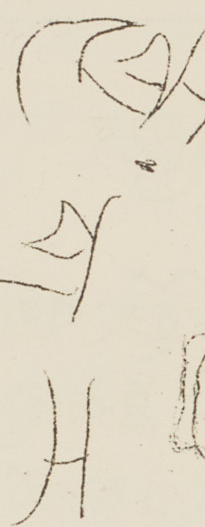རྒྱ་གར
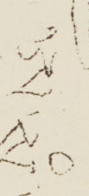ཨ་སཾ་
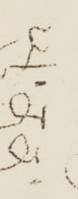ཡུ་ནན་
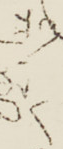ཀི་ཅའོ་
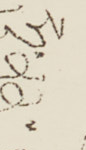ཧུ་ནན་
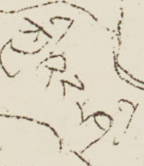ཀྱིའང་ཤི་
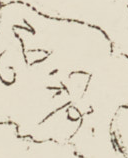ཕུ་ཀིན་
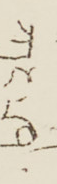ཀྭང་ཤི་
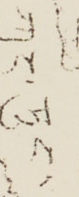ཀྭང་ཏུང་
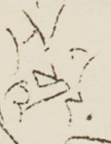རི་ཀླིང་
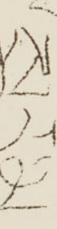སྦར་མ
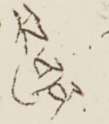རང་གུན་
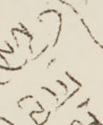སྤྱི་ཟླ་
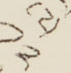༡༢
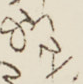ཚེས་
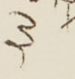༣
